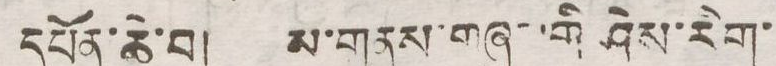དཔོན་ཆེ་བ། ས་གནས་གཞུང་གི ཤེས་རིག་
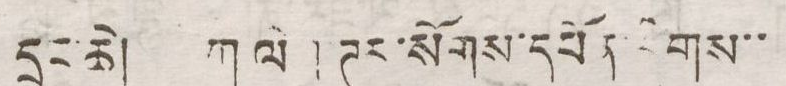དྲུང་ཆེ། ཀ ལེག ཊར་སོགས་དཔོན་རིགས་་
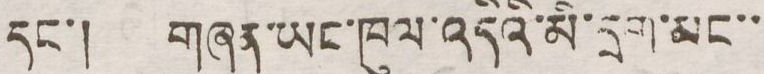དང་། གཞན་ཡང་ཁུལ་འདིའི་མི་དྲག་མང་་
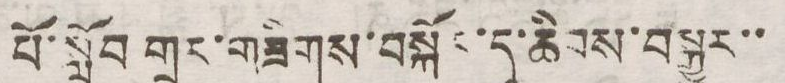པོ་སློབ གྲྭར་གཟིགས་བསྐོར་དུ་ཆིབས་བསྒྱུར་་
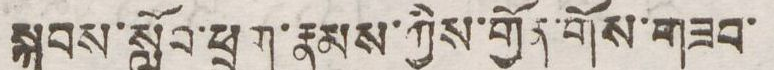སྐབས་སློབ་ཕྲུག་རྣམས་ཀྱིས་གྱོན་གོས་གཟབ་
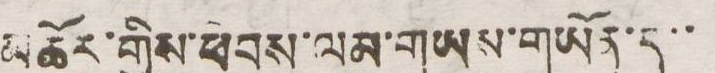མཆོར་གྱིས་ཕེབས་ལམ་གཡས་གཡོན་དུ་་
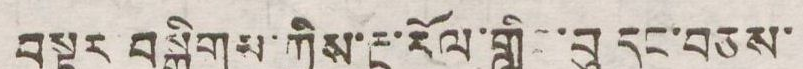བསྟར བསྒྲིགས་ཀྱིས་རྔ་རོལ་གླིང་བུ་དང་བཅས་
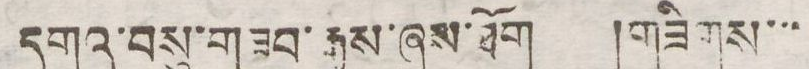དགའ་བསུ་གཟབ་རྒྱས་ཞུས་ཐོག །གཟིགས་་་
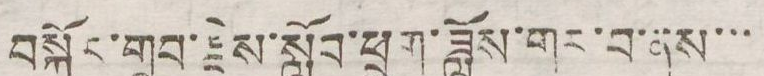བསྐོར་གྲུབ་རྗེས་སློབ་ཕྲུག་ཟློས་གར་བ་ནས་་་
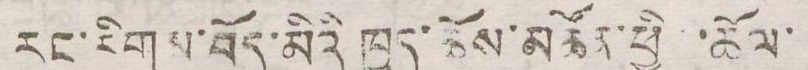རང་རིགས་བོད་མིའི ཁྱད་ཆོས་མཚོན་ཕྱིན་ཆོལ་
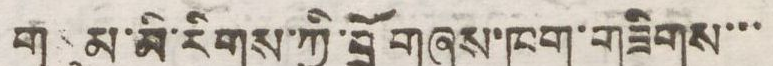གསུམ་མི་རིགས་ཀྱི་བྲོ གཞས་ཁག་གཟིགས་་་
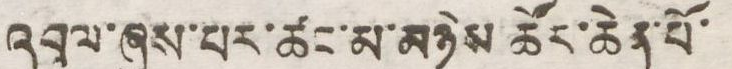འབུལ་ཞུས་པར་ཚང་མ་མཉེས ཚོར་ཆེན་པོ་
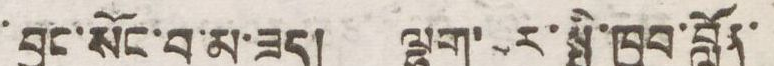བྱུང་སོང་བ་མ་ཟད། ལྷག་པར་སྤྱི་ཁྱབ་བློན་
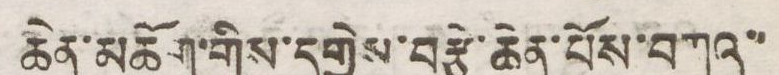ཆེན་མཆོག་གིས་དགྱེས་བརྩེ་ཆེན་པོས་བཀའ་་
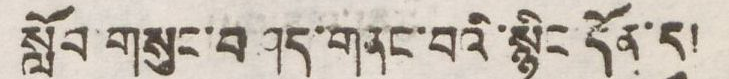སློབ་གསུང་བཤད་གནང་བའི་སྙིང་དོན་དུ།
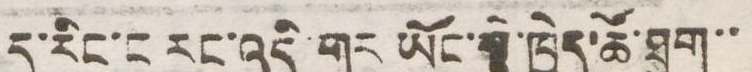ད་རིང་ང རང་འདི་གར ཡོང་སྟེ་ཁྱེད་ཚོ་ཐུག་་
